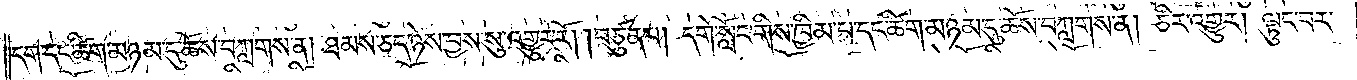དག་དང་ཚིག་མཉམ་དུ་ཆོས་བཀླགས་ན། ཐམས་ཅད་ཉེས་བྱས་སུ་འགྱུར་རོ། །བཙུན་པ། དགེ་སློང་གིས་ཁྱིམ་པ་དང་ཚིག་མཉམ་དུ་ཆོས་བཀླགས་ན། ཅིར་འགྱུར། ལྟུང་བར་
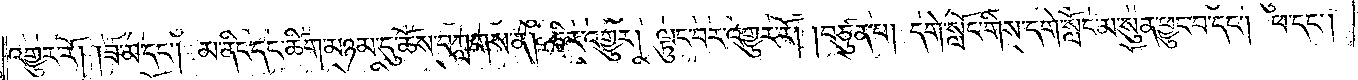འགྱུར་རོ། །ཟ་མ་དང༌། མ་ནིང་དང་ཚིག་མཉམ་དུ་ཆོས་བཀླགས་ན། ཅིར་འགྱུར། ལྟུང་བར་འགྱུར་རོ། །བཙུན་པ། དགེ་སློང་གིས་དགེ་སློང་མ་སུན་ཕྱུང་བ་དང༌། ཕ་དང༌།
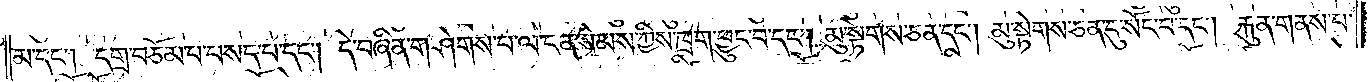མ་དང༌། དགྲ་བཅོམ་པ་བསད་པ་དང༌། དེ་བཞིན་གཤེགས་པ་ལ་ངན་སེམས་ཀྱིས་ཁྲག་ཕྱུང་བ་དང༌། མུ་སྟེགས་ཅན་དང༌། མུ་སྟེགས་ཅན་དུ་སོང་བ་དང༌། རྐུན་གནས་པ་
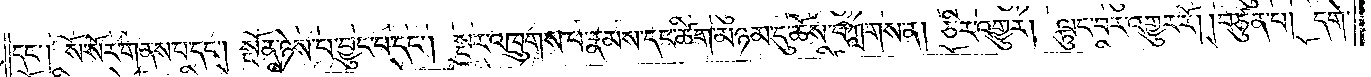དང༌། སོ་སོར་གནས་པ་དང༌། སྔོན་ཉེས་པ་བྱུང་བ་དང༌། སྔར་འཁྲུགས་པ་རྣམས་དང་ཚིག་མཉམ་དུ་ཆོས་བཀླགས་ན། ཅིར་འགྱུར། ལྟུང་བར་འགྱུར་རོ། །བཙུན་པ། དགེ་
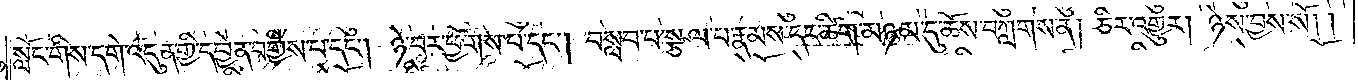སློང་གིས་དགེ་འདུན་གྱི་དབྱེན་བགྱིས་པ་དང༌། ཉེ་བར་ཕྱོགས་པ་དང༌། བསླབ་པ་སྩལ་པ་རྣམས་དང་ཚིག་མཉམ་དུ་ཆོས་བཀླགས་ན། ཅིར་འགྱུར། ཉེས་བྱས་སོ།
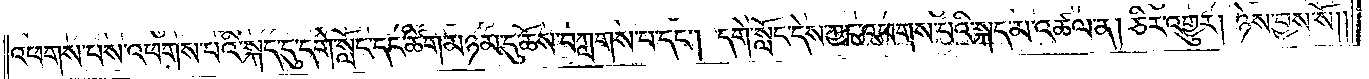འཕགས་པས་འཕགས་པའི་སྐད་དུ་དགེ་སློང་དང་ཚིག་མཉམ་དུ་ཆོས་བཀླགས་པ་དང༌། དགེ་སློང་དེས་ཀྱང་འཕགས་པའི་སྐད་མ་འཚལ་ན། ཅིར་འགྱུར། ཉེས་བྱས་སོ༎
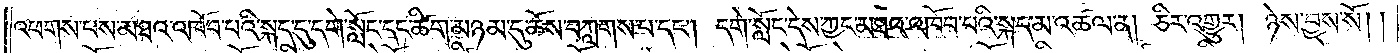འཕགས་པས་མཐའ་འཁོབ་པའི་སྐད་དུ་དགེ་སློང་དང་ཚིག་མཉམ་དུ་ཆོས་བཀླགས་པ་དང༌། དགེ་སློང་དེས་ཀྱང་མཐའ་འཁོབ་པའི་སྐད་མ་འཚལ་ན། ཅིར་འགྱུར། ཉེས་བྱས་སོ། །
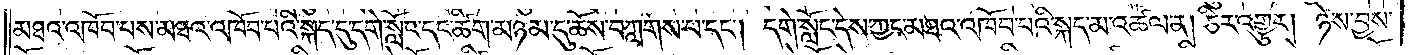མཐའ་འཁོབ་པས་མཐའ་འཁོབ་པའི་སྐད་དུ་དགེ་སློང་དང་ཚིག་མཉམ་དུ་ཆོས་བཀླགས་པ་དང༌། དགེ་སློང་དེས་ཀྱང་མཐའ་འཁོབ་པའི་སྐད་མ་འཚལ་ན། ཅིར་འགྱུར། ཉེས་བྱས་
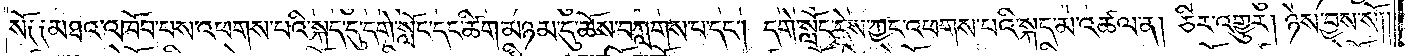སོ༑ ༑མཐའ་འཁོབ་པས་འཕགས་པའི་སྐད་དུ་དགེ་སློང་དང་ཚིག་མཉམ་དུ་ཆོས་བཀླགས་པ་དང༌། དགེ་སློང་དེས་ཀྱང་འཕགས་པའི་སྐད་མ་འཚལ་ན། ཅིར་འགྱུར། ཉེས་བྱས་སོ།
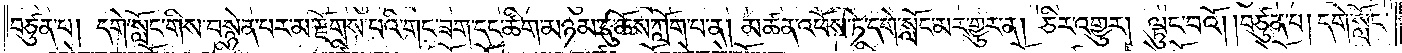བཙུན་པ། དགེ་སློང་གིས་བསྙེན་པར་མ་རྫོགས་པའི་གང་ཟག་དང་ཚིག་མཉམ་དུ་ཆོས་ཀློག་པ་ན། མཚན་འཕོས་ཏེ་དགེ་སློང་མར་གྱུར་ན། ཅིར་འགྱུར། ལྟུང་བའོ། །བཙུན་པ། དགེ་སློང་
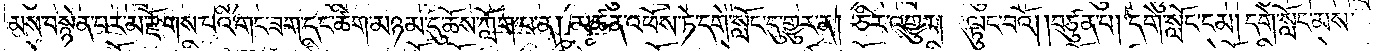མས་བསྙེན་པར་མ་རྫོགས་པའི་གང་ཟག་དང་ཚིག་མཉམ་དུ་ཆོས་ཀློག་པ་ན། མཚན་འཕོས་ཏེ་དགེ་སློང་དུ་གྱུར་ན། ཅིར་འགྱུར། ལྟུང་བའོ། །བཙུན་པ། དགེ་སློང་ངམ། དགེ་སློང་མས་
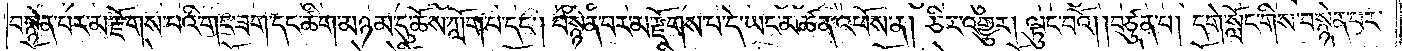བསྙེན་པར་མ་རྫོགས་པའི་གང་ཟག་དང་ཚིག་མཉམ་དུ་ཆོས་ཀློག་པ་དང༌། བསྙེན་པར་མ་རྫོགས་པ་དེ་ཡང་མཚན་འཕོས་ན། ཅིར་འགྱུར། ལྟུང་བའོ། །བཙུན་པ། དགེ་སློང་གིས་བསྙེན་པར་
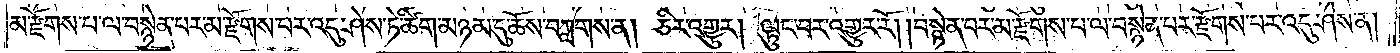མ་རྫོགས་པ་ལ་བསྙེན་པར་མ་རྫོགས་པར་འདུ་ཤེས་ཏེ་ཚིག་མཉམ་དུ་ཆོས་བཀླགས་ན། ཅིར་འགྱུར། ལྟུང་བར་འགྱུར་རོ། །བསྙེན་པར་མ་རྫོགས་པ་ལ་བསྙེན་པར་རྫོགས་པར་འདུ་ཤེས་ན་
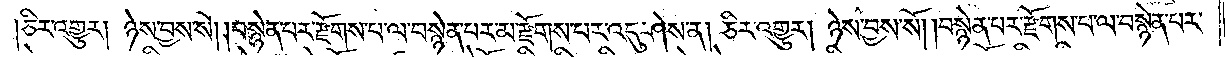།ཅིར་འགྱུར། ཉེས་བྱས་སོ། །བསྙེན་པར་རྫོགས་པ་ལ་བསྙེན་པར་མ་རྫོགས་པར་འདུ་ཤེས་ན། ཅིར་འགྱུར། ཉེས་བྱས་སོ། །བསྙེན་པར་རྫོགས་པ་ལ་བསྙེན་པར་
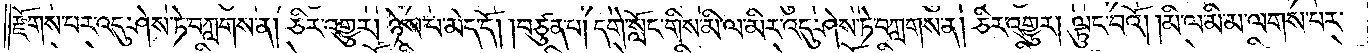རྫོགས་པར་འདུ་ཤེས་ཏེ་བཀླགས་ན། ཅིར་འགྱུར། ཉེས་པ་མེད་དོ། །བཙུན་པ། དགེ་སློང་གིས་མི་ལ་མིར་འདུ་ཤེས་ཏེ་བཀླགས་ན། ཅིར་འགྱུར། ལྟུང་བའོ། །མི་ལ་མི་མ་ལགས་པར་
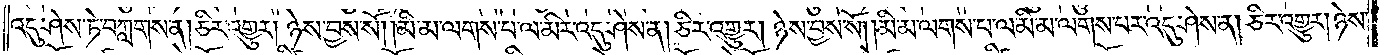འདུ་ཤེས་ཏེ་བཀླགས་ན། ཅིར་འགྱུར། ཉེས་བྱས་སོ་།མི་མ་ལགས་པ་ལ་མིར་འདུ་ཤེས་ན། ཅིར་འགྱུར། ཉེས་བྱས་སོ། །མི་མ་ལགས་པ་ལ་མི་མ་ལགས་པར་འདུ་ཤེས་ན། ཅིར་འགྱུར། ཉེས་
